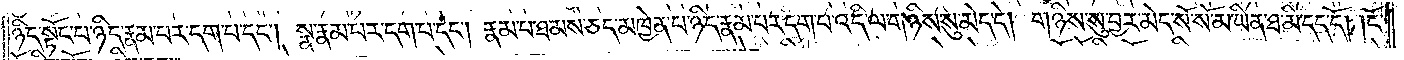ཉིད་སྟོང་པ་ཉིད་རྣམ་པར་དག་པ་དང༌། སྣ་རྣམ་པར་དག་པ་དང༌། རྣམ་པ་ཐམས་ཅད་མཁྱེན་པ་ཉིད་རྣམ་པར་དག་པ་འདི་ལ་གཉིས་སུ་མེད་དེ། གཉིས་སུ་བྱར་མེད་སོ་སོ་མ་ཡིན་ཐ་མི་དད་དོ། །ངོ་
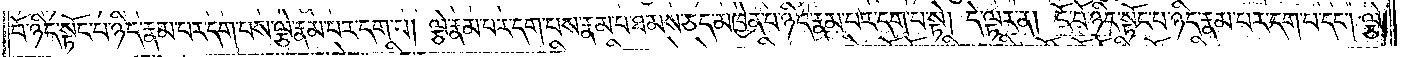བོ་ཉིད་སྟོང་པ་ཉིད་རྣམ་པར་དག་པས་ལྕེ་རྣམ་པར་དག་པ། ལྕེ་རྣམ་པར་དག་པས་རྣམ་པ་ཐམས་ཅད་མཁྱེན་པ་ཉིད་རྣམ་པར་དག་པ་སྟེ། དེ་ལྟར་ན། ངོ་བོ་ཉིད་སྟོང་པ་ཉིད་རྣམ་པར་དག་པ་དང༌། ལྕེ་
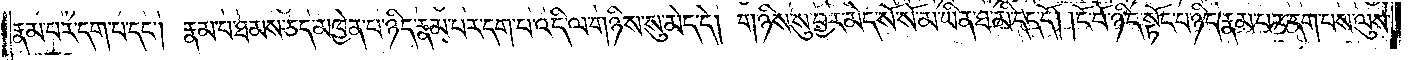རྣམ་པར་དག་པ་དང༌། རྣམ་པ་ཐམས་ཅད་མཁྱེན་པ་ཉིད་རྣམ་པར་དག་པ་འདི་ལ་གཉིས་སུ་མེད་དེ། གཉིས་སུ་བྱར་མེད་སོ་སོ་མ་ཡིན་ཐ་མི་དད་དོ། །ངོ་བོ་ཉིད་སྟོང་པ་ཉིད་རྣམ་པར་དག་པས་ལུས་
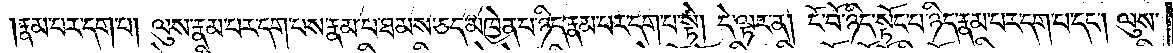རྣམ་པར་དག་པ། ལུས་རྣམ་པར་དག་པས་རྣམ་པ་ཐམས་ཅད་མཁྱེན་པ་ཉིད་རྣམ་པར་དག་པ་སྟེ། དེ་ལྟར་ན། ངོ་བོ་ཉིད་སྟོང་པ་ཉིད་རྣམ་པར་དག་པ་དང༌། ལུས་
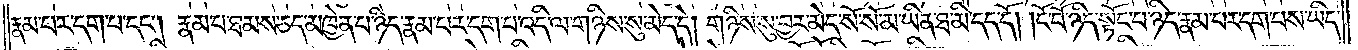རྣམ་པར་དག་པ་དང༌། རྣམ་པ་ཐམས་ཅད་མཁྱེན་པ་ཉིད་རྣམ་པར་དག་པ་འདི་ལ་གཉིས་སུ་མེད་དེ། གཉིས་སུ་བྱར་མེད་སོ་སོ་མ་ཡིན་ཐ་མི་དད་དོ། །ངོ་བོ་ཉིད་སྟོང་པ་ཉིད་རྣམ་པར་དག་པས་ཡིད་
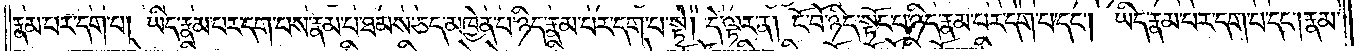རྣམ་པར་དག་པ། ཡིད་རྣམ་པར་དག་པས་རྣམ་པ་ཐམས་ཅད་མཁྱེན་པ་ཉིད་རྣམ་པར་དག་པ་སྟེ། དེ་ལྟར་ན། ངོ་བོ་ཉིད་སྟོང་པ་ཉིད་རྣམ་པར་དག་པ་དང༌། ཡིད་རྣམ་པར་དག་པ་དང༌། རྣམ་
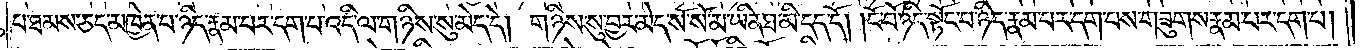པ་ཐམས་ཅད་མཁྱེན་པ་ཉིད་རྣམ་པར་དག་པ་འདི་ལ་གཉིས་སུ་མེད་དེ། གཉིས་སུ་བྱར་མེད་སོ་སོ་མ་ཡིན་ཐ་མི་དད་དོ། །ངོ་བོ་ཉིད་སྟོང་པ་ཉིད་རྣམ་པར་དག་པས་གཟུགས་རྣམ་པར་དག་པ།
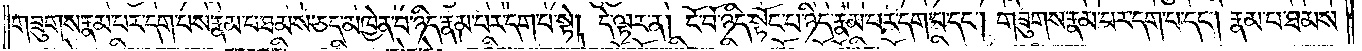གཟུགས་རྣམ་པར་དག་པས་རྣམ་པ་ཐམས་ཅད་མཁྱེན་པ་ཉིད་རྣམ་པར་དག་པ་སྟེ། དེ་ལྟར་ན། ངོ་བོ་ཉིད་སྟོང་པ་ཉིད་རྣམ་པར་དག་པ་དང༌། གཟུགས་རྣམ་པར་དག་པ་དང༌། རྣམ་པ་ཐམས་
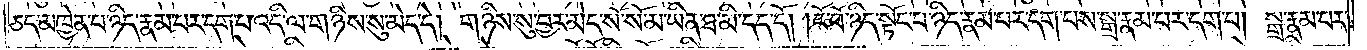ཅད་མཁྱེན་པ་ཉིད་རྣམ་པར་དག་པ་འདི་ལ་གཉིས་སུ་མེད་དེ། གཉིས་སུ་བྱར་མེད་སོ་སོ་མ་ཡིན་ཐ་མི་དད་དོ། །ངོ་བོ་ཉིད་སྟོང་པ་ཉིད་རྣམ་པར་དག་པས་སྒྲ་རྣམ་པར་དག་པ། སྒྲ་རྣམ་པར་
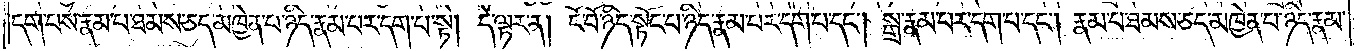དག་པས་རྣམ་པ་ཐམས་ཅད་མཁྱེན་པ་ཉིད་རྣམ་པར་དག་པ་སྟེ། དེ་ལྟར་ན། ངོ་བོ་ཉིད་སྟོང་པ་ཉིད་རྣམ་པར་དག་པ་དང༌། སྒྲ་རྣམ་པར་དག་པ་དང༌། རྣམ་པ་ཐམས་ཅད་མཁྱེན་པ་ཉིད་རྣམ་
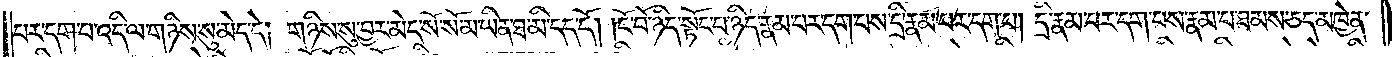པར་དག་པ་འདི་ལ་གཉིས་སུ་མེད་དེ། གཉིས་སུ་བྱར་མེད་སོ་སོ་མ་ཡིན་ཐ་མི་དད་དོ། །ངོ་བོ་ཉིད་སྟོང་པ་ཉིད་རྣམ་པར་དག་པས་དྲི་རྣམ་པར་དག་པ། དྲི་རྣམ་པར་དག་པས་རྣམ་པ་ཐམས་ཅད་མཁྱེན་
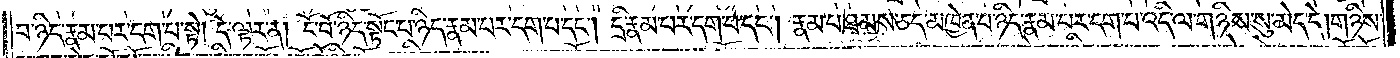པ་ཉིད་རྣམ་པར་དག་པ་སྟེ། དེ་ལྟར་ན། ངོ་བོ་ཉིད་སྟོང་པ་ཉིད་རྣམ་པར་དག་པ་དང༌། དྲི་རྣམ་པར་དག་པ་དང༌། རྣམ་པ་ཐམས་ཅད་མཁྱེན་པ་ཉིད་རྣམ་པར་དག་པ་འདི་ལ་གཉིས་སུ་མེད་དེ། གཉིས་
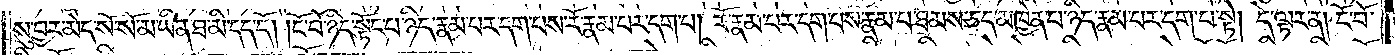སུ་བྱར་མེད་སོ་སོ་མ་ཡིན་ཐ་མི་དད་དོ། །ངོ་བོ་ཉིད་སྟོང་པ་ཉིད་རྣམ་པར་དག་པས་རོ་རྣམ་པར་དག་པ། རོ་རྣམ་པར་དག་པས་རྣམ་པ་ཐམས་ཅད་མཁྱེན་པ་ཉིད་རྣམ་པར་དག་པ་སྟེ། དེ་ལྟར་ན། ངོ་བོ་
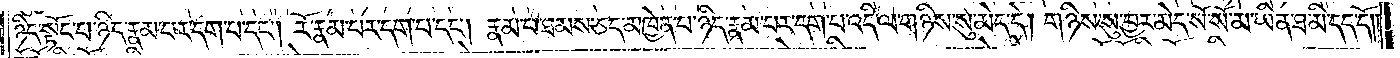ཉིད་སྟོང་པ་ཉིད་རྣམ་པར་དག་པ་དང༌། རོ་རྣམ་པར་དག་པ་དང༌། རྣམ་པ་ཐམས་ཅད་མཁྱེན་པ་ཉིད་རྣམ་པར་དག་པ་འདི་ལ་གཉིས་སུ་མེད་དེ། གཉིས་སུ་བྱར་མེད་སོ་སོ་མ་ཡིན་ཐ་མི་དད་དོ། །
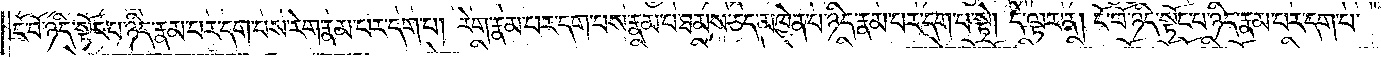ངོ་བོ་ཉིད་སྟོང་པ་ཉིད་རྣམ་པར་དག་པས་རེག་རྣམ་པར་དག་པ། རེག་རྣམ་པར་དག་པས་རྣམ་པ་ཐམས་ཅད་མཁྱེན་པ་ཉིད་རྣམ་པར་དག་པ་སྟེ། དེ་ལྟར་ན། ངོ་བོ་ཉིད་སྟོང་པ་ཉིད་རྣམ་པར་དག་པ་
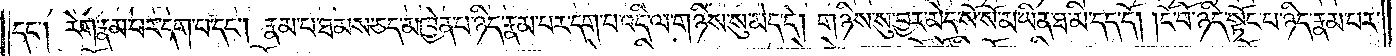དང༌། རེག་རྣམ་པར་དག་པ་དང༌། རྣམ་པ་ཐམས་ཅད་མཁྱེན་པ་ཉིད་རྣམ་པར་དག་པ་འདི་ལ་གཉིས་སུ་མེད་དེ། གཉིས་སུ་བྱར་མེད་སོ་སོ་མ་ཡིན་ཐ་མི་དད་དོ། །ངོ་བོ་ཉིད་སྟོང་པ་ཉིད་རྣམ་པར་
